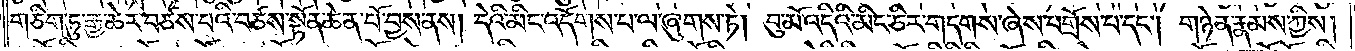གཅིག་ཏུ་རྒྱ་ཆེར་བཙས་པའི་བཙས་སྟོན་ཆེན་པོ་བྱས་ནས། དེའི་མིང་འདོགས་པ་ལ་ཞུགས་ཏེ། བུ་མོ་འདིའི་མིང་ཅིར་གདགས་ཞེས་བགྲོས་པ་དང༌། གཉེན་རྣམས་ཀྱིས།
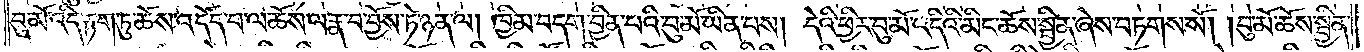བུ་མོ་འདི་རྟག་ཏུ་ཆོས་འདོད་པ་ལ་ཆོས་ལ་རྣ་བ་བྱོས་ཏེ་ཉན་ལ། ཁྱིམ་བདག་བྱིན་པའི་བུ་མོ་ཡིན་པས། དེའི་ཕྱིར་བུ་མོ་འདིའི་མིང་ཆོས་སྦྱིན་ཞེས་བཏགས་སོ། །བུ་མོ་ཆོས་སྦྱིན་
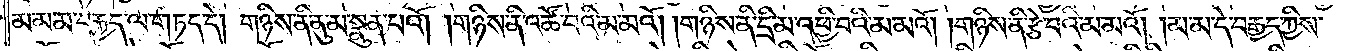མ་མ་མ་བརྒྱད་ལ་གཏད་དེ། གཉིས་ནི་ནུ་མ་སྣུན་པའོ། །གཉིས་ནི་འཚོ་བའི་མ་མའོ། །གཉིས་ནི་དྲི་མ་འཕྱི་བའི་མ་མའོ། །གཉིས་ནི་རྩེ་བའི་མ་མའོ། །མ་མ་དེ་བརྒྱད་ཀྱིས་
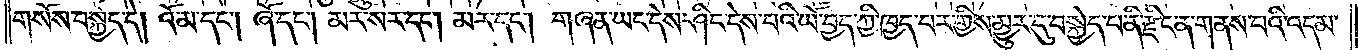གསོས་བསྐྱེད་དེ། འོ་མ་དང༌། ཞོ་དང༌། མར་སར་དང༌། མར་དང༌། གཞན་ཡང་དེས་ཤིང་དེས་པའི་ཡོ་བྱད་ཀྱི་ཁྱད་པར་གྱིས་མྱུར་དུ་བསྐྱེད་པ་ནི་རྫིང་ན་གནས་པའི་འདམ་
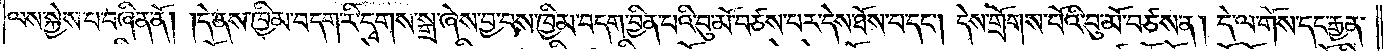ལས་སྐྱེས་པ་བཞིན་ནོ། །དེ་ནས་ཁྱིམ་བདག་རི་དྭགས་སྒྲ་ཞེས་བྱ་བས་ཁྱིམ་བདག་བྱིན་པའི་བུ་མོ་བཙས་པར་དེས་ཐོས་པ་དང༌། དེས་གྲོགས་པོའི་བུ་མོ་བཙས་ན། དེ་ལ་གོས་དང་རྒྱན་
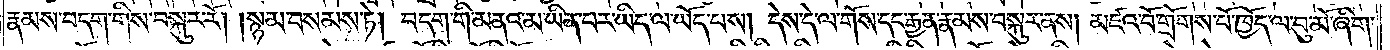རྣམས་བདག་གིས་བསྐུར་རོ། །སྙམ་བསམས་ཏེ། བདག་གི་མནའ་མ་ཡིན་པར་ཡིད་ལ་ཡོད་པས། དེས་དེ་ལ་གོས་དང་རྒྱན་རྣམས་བསྐུར་ནས། མཛའ་བོ་གྲོགས་པོ་ཁྱོད་ལ་བུ་མོ་ཞིག་
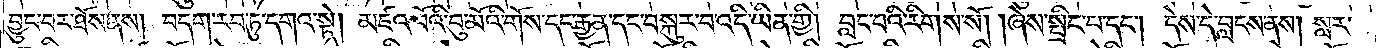བྱུང་བར་ཐོས་ནས། བདག་རབ་ཏུ་དགའ་སྟེ། མཛའ་བོའི་བུ་མོའི་གོས་དང་རྒྱན་དང་བསྐུར་བ་འདི་ཡིན་གྱི། བླང་བའི་རིགས་སོ། །ཞེས་སྤྲིང་པ་དང༌། དེས་དེ་བླངས་ནས། སླར་
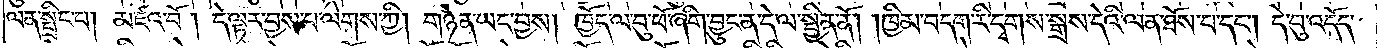ལན་སྤྲིང་པ། མཛའ་བོ། དེ་ལྟར་བྱས་པ་ལེགས་ཀྱི། གཉེན་ཡང་བྱས། ཁྱོད་ལ་བུ་ཕོ་ཞིག་བྱུང་ན་དེ་ལ་སྦྱིན་ནོ། །ཁྱིམ་བདག་རི་དྭགས་སྒྲས་དེའི་ལན་ཐོས་པ་དང༌། དེ་བུ་འདོད་
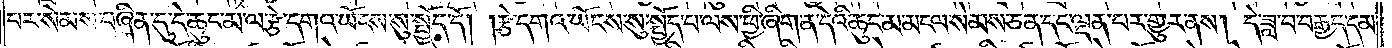པར་སེམས་བཞིན་དུ་དེ་ཆུང་མ་ལ་རྩེ་དགའ་ཡོངས་སུ་སྤྱོད་དོ། །རྩེ་དགའ་ཡོངས་སུ་སྤྱོད་པ་ལས་ཕྱི་ཞིག་ན་དེའི་ཆུང་མ་མངལ་སེམས་ཅན་དང་ལྡན་པར་གྱུར་ནས། དེ་ཟླ་བ་བརྒྱད་དམ་
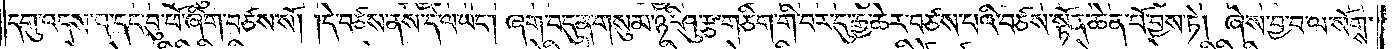དགུ་འདས་པ་དང་བུ་ཕོ་ཞིག་བཙས་སོ། །དེ་བཙས་ནས་དེ་ལ་ཡང༌། ཞག་བདུན་གསུམ་ཉི་ཤུ་རྩ་གཅིག་གི་བར་དུ་རྒྱ་ཆེར་བཙས་པའི་བཙས་སྟོན་ཆེན་པོ་བྱས་ཏེ། ཞེས་བྱ་བ་ལ་སོགས་
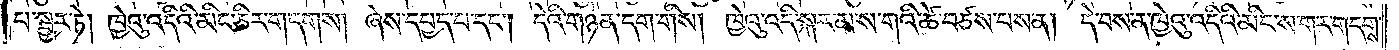པ་སྦྱར་ཏེ། ཁྱེའུ་འདིའི་མིང་ཅིར་གདགས། ཞེས་དཔྱད་པ་དང༌། དེའི་གཉེན་དག་གིས། ཁྱེའུ་འདི་སྐར་མ་ས་གའི་ཚེ་བཙས་པས་ན། དེ་བས་ན་ཁྱེའུ་འདིའི་མིང་ས་གར་གདགས་
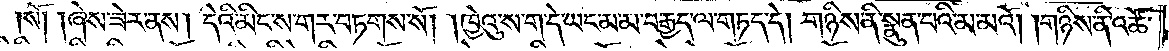སོ། །ཞེས་ཟེར་ནས། དེའི་མིང་ས་གར་བཏགས་སོ། །ཁྱེའུ་ས་ག་དེ་ཡང་མ་མ་བརྒྱད་ལ་གཏད་དེ། གཉིས་ནི་སྣུན་པའི་མ་མའོ། །གཉིས་ནི་འཚོ་
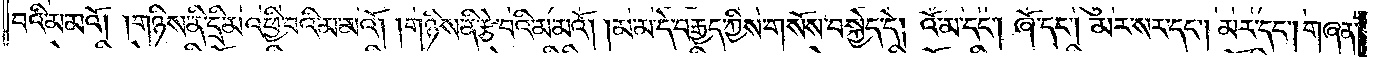བའི་མ་མའོ། །གཉིས་ནི་དྲི་མ་འཕྱི་བའི་མ་མའོ། །གཉིས་ནི་རྩེ་བའི་མ་མའོ། །མ་མ་དེ་བརྒྱད་ཀྱིས་གསོས་བསྐྱེད་དེ། འོ་མ་དང༌། ཞོ་དང༌། མར་སར་དང༌། མར་དང༌། གཞན་
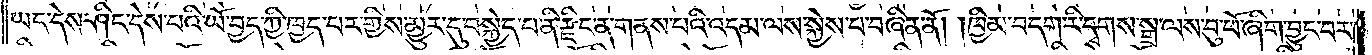ཡང་དེས་ཤིང་དེས་པའི་ཡོ་བྱད་ཀྱི་ཁྱད་པར་གྱིས་མྱུར་དུ་བསྐྱེད་པ་ནི་རྫིང་ན་གནས་པའི་འདམ་ལས་སྐྱེས་པ་བཞིན་ནོ། །ཁྱིམ་བདག་རི་དྭགས་སྒྲ་ལས་བུ་ཕོ་ཞིག་བྱུང་བར་
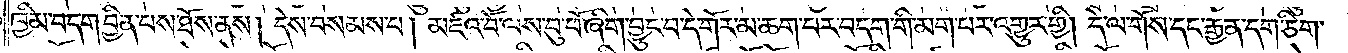ཁྱིམ་བདག་བྱིན་པས་ཐོས་ནས། དེས་བསམས་པ། མཛའ་བོ་ལས་བུ་ཕོ་ཞིག་བྱུང་བ་དེ་གོར་མ་ཆག་པར་བདག་གི་མག་པར་འགྱུར་གྱི། དེ་ལ་གོས་དང་རྒྱན་དག་ཅིག་
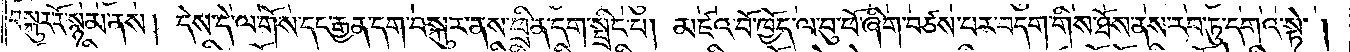བསྐུར་རོ་སྙམ་ནས། དེས་དེ་ལ་གོས་དང་རྒྱན་དག་བསྐུར་ནས་ཕྲིན་དག་སྤྲིང་པ། མཛའ་བོ་ཁྱོད་ལ་བུ་ཕོ་ཞིག་བཙས་པར་བདག་གིས་ཐོས་ནས་རབ་ཏུ་དགའ་སྟེ།
